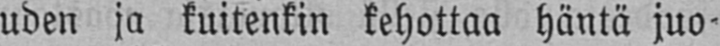uden ja kuitenkin kehottaa häntä juo-
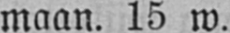maan. 15 w.
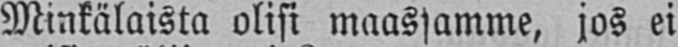Minkälaista olisi maassamme, jos ei
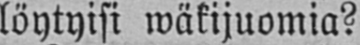löytyisi wäkijuomia?
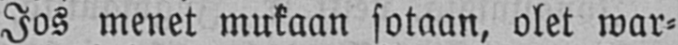Jos menet mukaan sotaan, olet war-
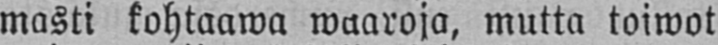masti kohtaawa waaroja, mutta toiwot
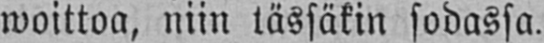woittoa, niin tässäkin sodassa.
